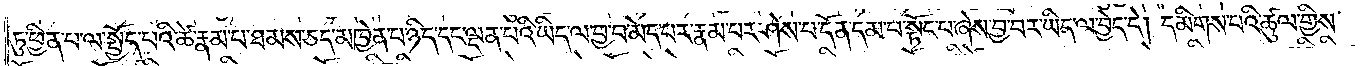ཏུ་ཕྱིན་པ་ལ་སྤྱོད་པའི་ཚེ་རྣམ་པ་ཐམས་ཅད་མཁྱེན་པ་ཉིད་དང་ལྡན་པའི་ཡིད་ལ་བྱ་བ་མེད་པར་རྣམ་པར་ཤེས་པ་དོན་དམ་པ་སྟོང་པ་ཞེས་བྱ་བར་ཡིད་ལ་བྱེད་དེ། དམིགས་པའི་ཚུལ་གྱིས་
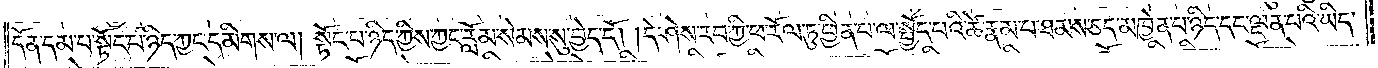དོན་དམ་པ་སྟོང་པ་ཉིད་ཀྱང་དམིགས་ལ། སྟོང་པ་ཉིད་ཀྱིས་ཀྱང་རློམ་སེམས་སུ་བྱེད་དོ། །དེ་ཤེས་རབ་ཀྱི་ཕ་རོལ་ཏུ་ཕྱིན་པ་ལ་སྤྱོད་པའི་ཚེ་རྣམ་པ་ཐམས་ཅད་མཁྱེན་པ་ཉིད་དང་ལྡན་པའི་ཡིད་
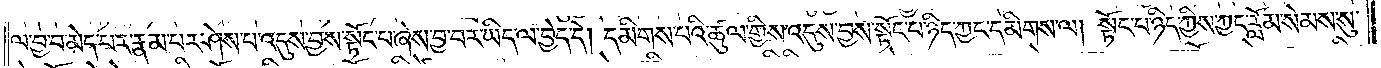ལ་བྱ་བ་མེད་པར་རྣམ་པར་ཤེས་པ་འདུས་བྱས་སྟོང་པ་ཞེས་བྱ་བར་ཡིད་ལ་བྱེད་དེ། དམིགས་པའི་ཚུལ་གྱིས་འདུས་བྱས་སྟོང་པ་ཉིད་ཀྱང་དམིགས་ལ། སྟོང་པ་ཉིད་ཀྱིས་ཀྱང་རློམ་སེམས་སུ་
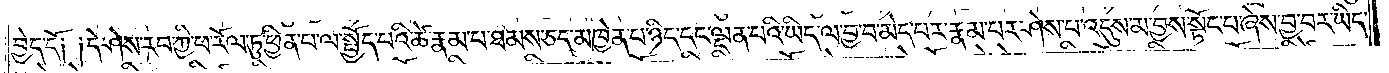བྱེད་དོ༑ ༑དེ་ཤེས་རབ་ཀྱི་ཕ་རོལ་ཏུ་ཕྱིན་པ་ལ་སྤྱོད་པའི་ཚེ་རྣམ་པ་ཐམས་ཅད་མཁྱེན་པ་ཉིད་དང་ལྡན་པའི་ཡིད་ལ་བྱ་བ་མེད་པར་རྣམ་པར་ཤེས་པ་འདུས་མ་བྱས་སྟོང་པ་ཞེས་བྱ་བར་ཡིད་
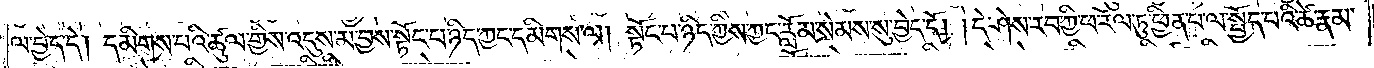ལ་བྱེད་དེ། དམིགས་པའི་ཚུལ་གྱིས་འདུས་མ་བྱས་སྟོང་པ་ཉིད་ཀྱང་དམིགས་ལ། སྟོང་པ་ཉིད་ཀྱིས་ཀྱང་རློམ་སེམས་སུ་བྱེད་དོ། །དེ་ཤེས་རབ་ཀྱི་ཕ་རོལ་ཏུ་ཕྱིན་པ་ལ་སྤྱོད་པའི་ཚེ་རྣམ་
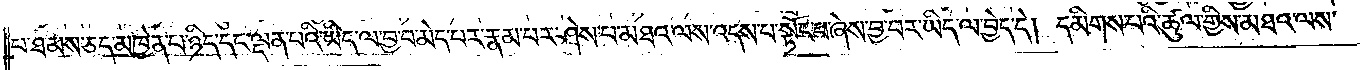པ་ཐམས་ཅད་མཁྱེན་པ་ཉིད་དང་ལྡན་པའི་ཡིད་ལ་བྱ་བ་མེད་པར་རྣམ་པར་ཤེས་པ་མཐའ་ལས་འདས་པ་སྟོང་པ་ཞེས་བྱ་བར་ཡིད་ལ་བྱེད་དེ། དམིགས་པའི་ཚུལ་གྱིས་མཐའ་ལས་
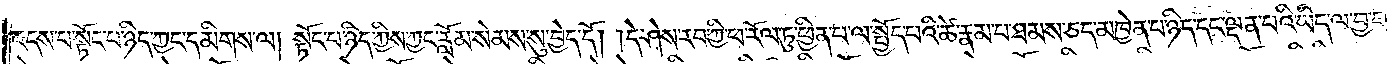འདས་པ་སྟོང་པ་ཉིད་ཀྱང་དམིགས་ལ། སྟོང་པ་ཉིད་ཀྱིས་ཀྱང་རློམ་སེམས་སུ་བྱེད་དོ། །དེ་ཤེས་རབ་ཀྱི་ཕ་རོལ་ཏུ་ཕྱིན་པ་ལ་སྤྱོད་པའི་ཚེ་རྣམ་པ་ཐམས་ཅད་མཁྱེན་པ་ཉིད་དང་ལྡན་པའི་ཡིད་ལ་བྱ་བ་
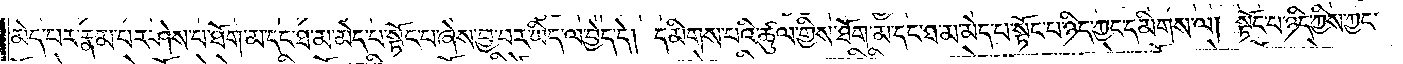མེད་པར་རྣམ་པར་ཤེས་པ་ཐོག་མ་དང་ཐ་མ་མེད་པ་སྟོང་པ་ཞེས་བྱ་བར་ཡིད་ལ་བྱེད་དེ། དམིགས་པའི་ཚུལ་གྱིས་ཐོག་མ་དང་ཐ་མ་མེད་པ་སྟོང་པ་ཉིད་ཀྱང་དམིགས་ལ། སྟོང་པ་ཉིད་ཀྱིས་ཀྱང་
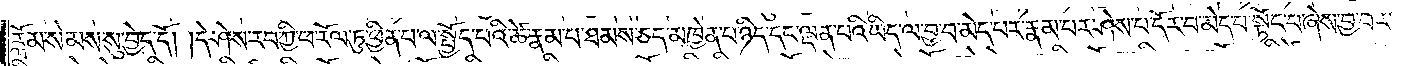རློམ་སེམས་སུ་བྱེད་དོ། །དེ་ཤེས་རབ་ཀྱི་ཕ་རོལ་ཏུ་ཕྱིན་པ་ལ་སྤྱོད་པའི་ཚེ་རྣམ་པ་ཐམས་ཅད་མཁྱེན་པ་ཉིད་དང་ལྡན་པའི་ཡིད་ལ་བྱ་བ་མེད་པར་རྣམ་པར་ཤེས་པ་དོར་བ་མེད་པ་སྟོང་པ་ཞེས་བྱ་བར་
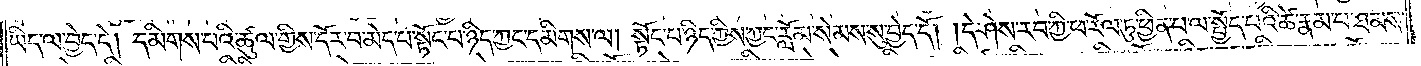ཡིད་ལ་བྱེད་དེ། དམིགས་པའི་ཚུལ་གྱིས་དོར་བ་མེད་པ་སྟོང་པ་ཉིད་ཀྱང་དམིགས་ལ། སྟོང་པ་ཉིད་ཀྱིས་ཀྱང་རློམ་སེམས་སུ་བྱེད་དོ། །དེ་ཤེས་རབ་ཀྱི་ཕ་རོལ་ཏུ་ཕྱིན་པ་ལ་སྤྱོད་པའི་ཚེ་རྣམ་པ་ཐམས་
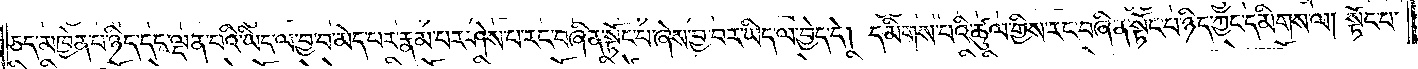ཅད་མཁྱེན་པ་ཉིད་དང་ལྡན་པའི་ཡིད་ལ་བྱ་བ་མེད་པར་རྣམ་པར་ཤེས་པ་རང་བཞིན་སྟོང་པ་ཞེས་བྱ་བར་ཡིད་ལ་བྱེད་དེ། དམིགས་པའི་ཚུལ་གྱིས་རང་བཞིན་སྟོང་པ་ཉིད་ཀྱང་དམིགས་ལ། སྟོང་པ་
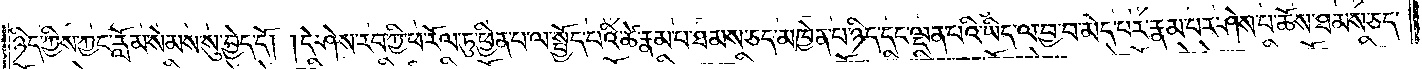ཉིད་ཀྱིས་ཀྱང་རློམ་སེམས་སུ་བྱེད་དོ། །དེ་ཤེས་རབ་ཀྱི་ཕ་རོལ་ཏུ་ཕྱིན་པ་ལ་སྤྱོད་པའི་ཚེ་རྣམ་པ་ཐམས་ཅད་མཁྱེན་པ་ཉིད་དང་ལྡན་པའི་ཡིད་ལ་བྱ་བ་མེད་པར་རྣམ་པར་ཤེས་པ་ཆོས་ཐམས་ཅད་
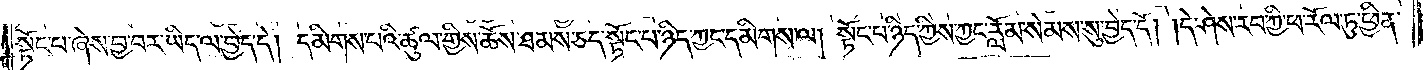སྟོང་པ་ཞེས་བྱ་བར་ཡིད་ལ་བྱེད་དེ། དམིགས་པའི་ཚུལ་གྱིས་ཆོས་ཐམས་ཅད་སྟོང་པ་ཉིད་ཀྱང་དམིགས་ལ། སྟོང་པ་ཉིད་ཀྱིས་ཀྱང་རློམ་སེམས་སུ་བྱེད་དོ། །དེ་ཤེས་རབ་ཀྱི་ཕ་རོལ་ཏུ་ཕྱིན་
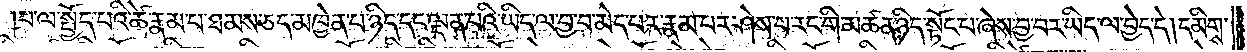པ་ལ་སྤྱོད་པའི་ཚེ་རྣམ་པ་ཐམས་ཅད་མཁྱེན་པ་ཉིད་དང་ལྡན་པའི་ཡིད་ལ་བྱ་བ་མེད་པར་རྣམ་པར་ཤེས་པ་རང་གི་མཚན་ཉིད་སྟོང་པ་ཞེས་བྱ་བར་ཡིད་ལ་བྱེད་དེ། དམིགས་
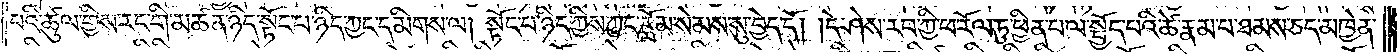པའི་ཚུལ་གྱིས་རང་གི་མཚན་ཉིད་སྟོང་པ་ཉིད་ཀྱང་དམིགས་ལ། སྟོང་པ་ཉིད་ཀྱིས་ཀྱང་རློམ་སེམས་སུ་བྱེད་དོ། །དེ་ཤེས་རབ་ཀྱི་ཕ་རོལ་ཏུ་ཕྱིན་པ་ལ་སྤྱོད་པའི་ཚེ་རྣམ་པ་ཐམས་ཅད་མཁྱེན་
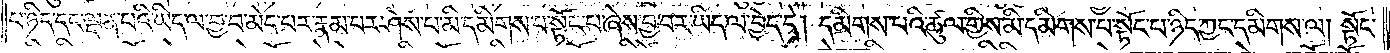པ་ཉིད་དང་ལྡན་པའི་ཡིད་ལ་བྱ་བ་མེད་པར་རྣམ་པར་ཤེས་པ་མི་དམིགས་པ་སྟོང་པ་ཞེས་བྱ་བར་ཡིད་ལ་བྱེད་དེ། དམིགས་པའི་ཚུལ་གྱིས་མི་དམིགས་པ་སྟོང་པ་ཉིད་ཀྱང་དམིགས་ལ། སྟོང་
